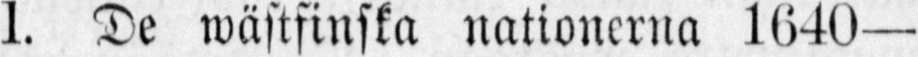1. De wästfinska nationerna 1640—
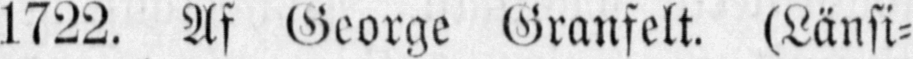1722. Af George Granfelt, (länsi-
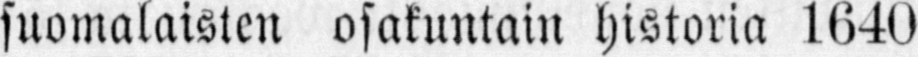suomalaisten osakuntain historia 1640
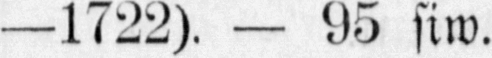—1722). — 95 siw.
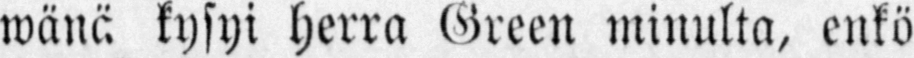wänä kysyi herra Green minulta, enkö
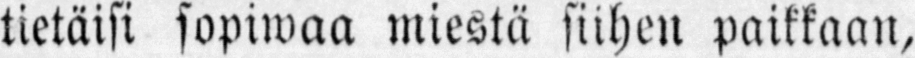tietäisi sopiwaa miestä siihen paikkaan,
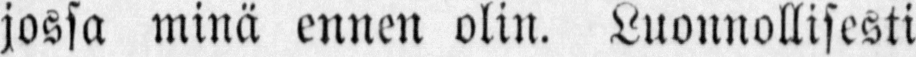jossa minä ennen olin. Luonnollisesti
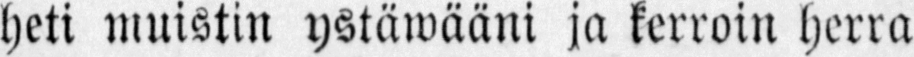heti muistin ystäwääni ja kerroin herra
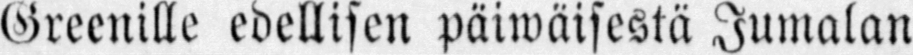Greenille edellisen päiwäisestä Jumalan
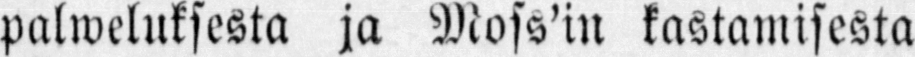palweluksesta ja Moss'in kastamisesta
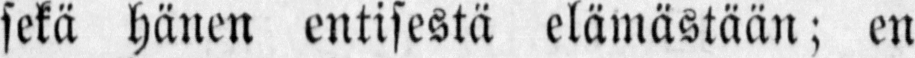sekä hänen entisestä elämästään; en
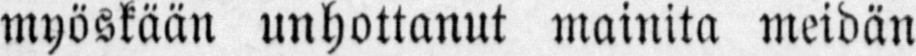myöskään unhottanut mainita meidän
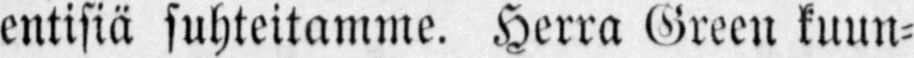entisiä suhteitamme. Herra Green kuun-
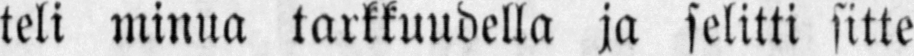teli minua tarkkuudella ja selitti sitte
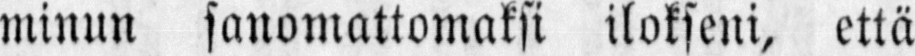minun sanomattomaksi ilokseni, että
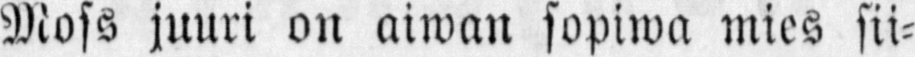Moss juuri on aiwan sopiwa mies sii-
